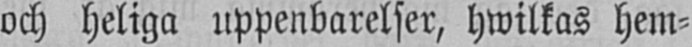och heliga uppenbarelser, hwilkas hem-
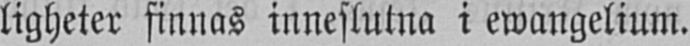ligheter finnas inneslutna i ewangelium.
